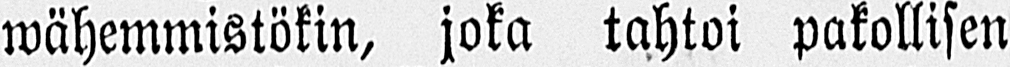wähemmistökin, joka tahtoi pakollisen
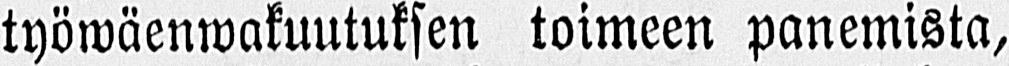työwäenwakuutuksen toimeen panemista,
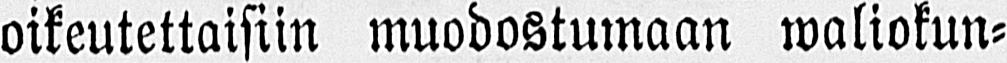oikeutettaisiin muodostumaan waliokun-
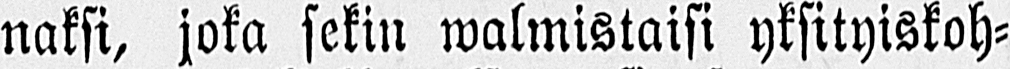naksi, joka sekin walmistaisi yksityiskoh-
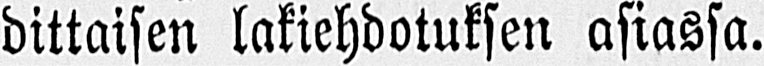dittaisen lakiehdotuksen asiassa.
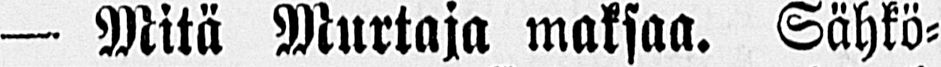— Mitä Murtaja maksaa. Sähkö-
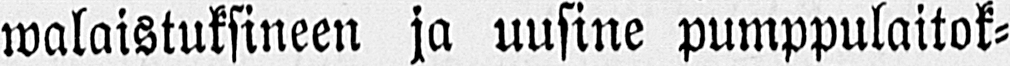walaistuksineen ja uusine pumppulaitok-
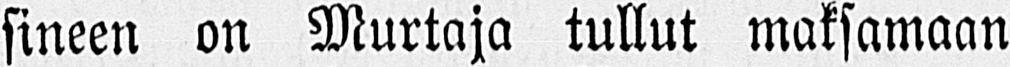sineen on Murtaja tullut maksamaan
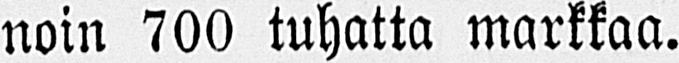noin 700 tuhatta markkaa.
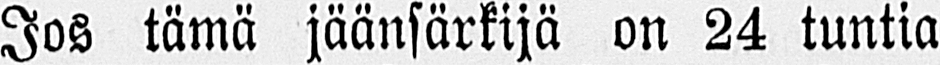Jos tämä jäänsärkijä on 24 tuntia
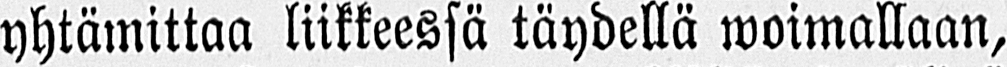yhtämittaa liikkeessä täydellä woimallaan,
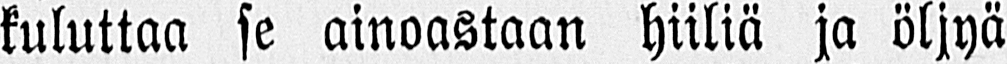kuluttaa se ainoastaan hiiliä ja öljyä
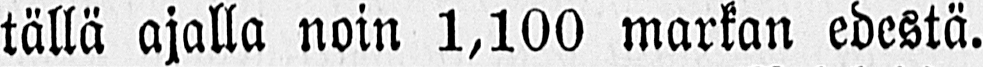tällä ajalla noin 1,100 markan edestä.
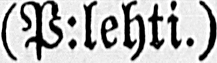(P:lehti.)
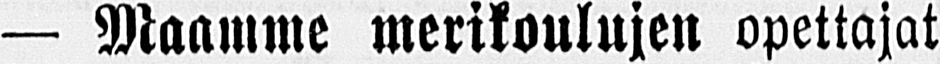— Maamme merikoulujen opettajat
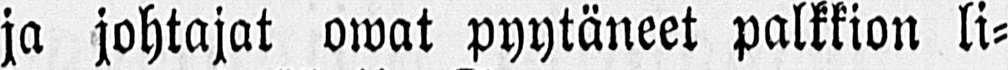ja johtajat owat pyytäneet palkkion li-
